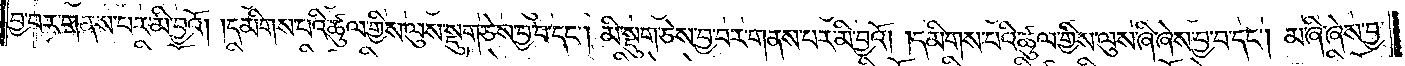བྱ་བར་གནས་པར་མི་བྱའོ། །དམིགས་པའི་ཚུལ་གྱིས་ལུས་སྡུག་ཅེས་བྱ་བ་དང༌། །མི་སྡུག་ཅེས་བྱ་བར་གནས་པར་མི་བྱའོ། །དམིགས་པའི་ཚུལ་གྱིས་ལུས་ཞི་ཞེས་བྱ་བ་དང༌། མ་ཞི་ཞེས་བྱ་
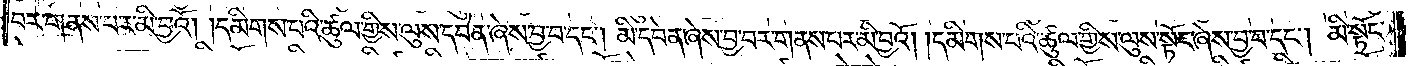བར་གནས་པར་མི་བྱའོ། །དམིགས་པའི་ཚུལ་གྱིས་ལུས་དབེན་ཞེས་བྱ་བ་དང༌། མི་དབེན་ཞེས་བྱ་བར་གནས་པར་མི་བྱའོ། །དམིགས་པའི་ཚུལ་གྱིས་ལུས་སྟོང་ཞེས་བྱ་བ་དང༌། མི་སྟོང་
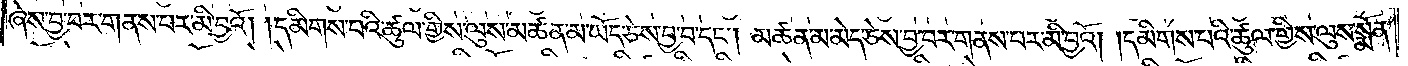ཞེས་བྱ་བར་གནས་པར་མི་བྱའོ། །དམིགས་པའི་ཚུལ་གྱིས་ལུས་མཚན་མ་ཡོད་ཅེས་བྱ་བ་དང༌། མཚན་མ་མེད་ཅེས་བྱ་བར་གནས་པར་མི་བྱའོ། །དམིགས་པའི་ཚུལ་གྱིས་ལུས་སྨོན་
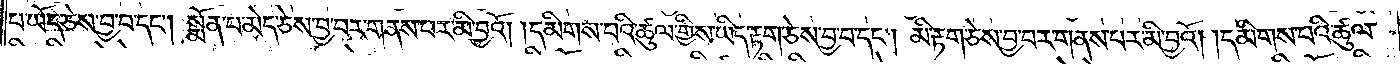པ་ཡོད་ཅེས་བྱ་བ་དང༌། སྨོན་པ་མེད་ཅེས་བྱ་བར་གནས་པར་མི་བྱའོ། །དམིགས་པའི་ཚུལ་གྱིས་ཡིད་རྟག་ཅེས་བྱ་བ་དང༌། མི་རྟག་ཅེས་བྱ་བར་གནས་པར་མི་བྱའོ། །དམིགས་པའི་ཚུལ་
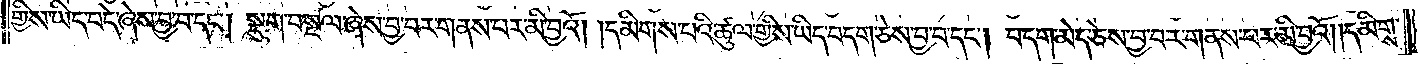གྱིས་ཡིད་བདེ་ཞེས་བྱ་བ་དང༌། སྡུག་བསྔལ་ཞེས་བྱ་བར་གནས་པར་མི་བྱའོ། །དམིགས་པའི་ཚུལ་གྱིས་ཡིད་བདག་ཅེས་བྱ་བ་དང༌། བདག་མེད་ཅེས་བྱ་བར་གནས་པར་མི་བྱའོ། །དམིགས་
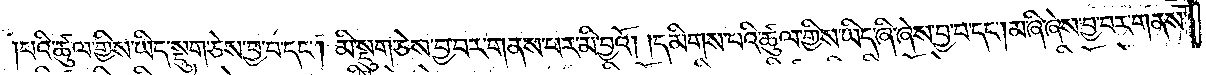པའི་ཚུལ་གྱིས་ཡིད་སྡུག་ཅེས་བྱ་བ་དང༌། མི་སྡུག་ཅེས་བྱ་བར་གནས་པར་མི་བྱའོ། །དམིགས་པའི་ཚུལ་གྱིས་ཡིད་ཞི་ཞེས་བྱ་བ་དང༌། མ་ཞི་ཞེས་བྱ་བར་གནས་
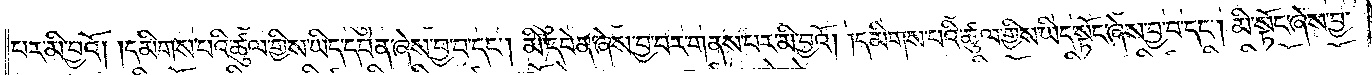པར་མི་བྱའོ། །དམིགས་པའི་ཚུལ་གྱིས་ཡིད་དབེན་ཞེས་བྱ་བ་དང༌། མི་དབེན་ཞེས་བྱ་བར་གནས་པར་མི་བྱའོ། །དམིགས་པའི་ཚུལ་གྱིས་ཡིད་སྟོང་ཞེས་བྱ་བ་དང༌། མི་སྟོང་ཞེས་བྱ་
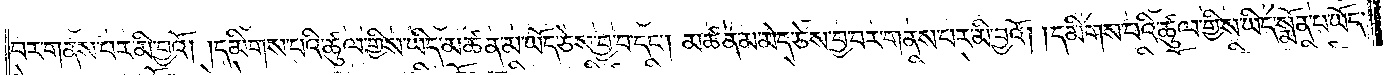བར་གནས་པར་མི་བྱའོ། །དམིགས་པའི་ཚུལ་གྱིས་ཡིད་མཚན་མ་ཡོད་ཅེས་བྱ་བ་དང༌། མཚན་མ་མེད་ཅེས་བྱ་བར་གནས་པར་མི་བྱའོ། །དམིགས་པའི་ཚུལ་གྱིས་ཡིད་སྨོན་པ་ཡོད་
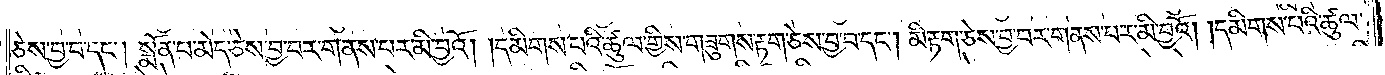ཅེས་བྱ་བ་དང༌། སྨོན་པ་མེད་ཅེས་བྱ་བར་གནས་པར་མི་བྱའོ། །དམིགས་པའི་ཚུལ་གྱིས་གཟུགས་རྟག་ཅེས་བྱ་བ་དང༌། མི་རྟག་ཅེས་བྱ་བར་གནས་པར་མི་བྱའོ། །དམིགས་པའི་ཚུལ་
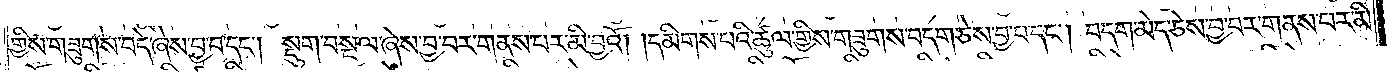གྱིས་གཟུགས་བདེ་ཞེས་བྱ་བ་དང༌། སྡུག་བསྔལ་ཞེས་བྱ་བར་གནས་པར་མི་བྱའོ། །དམིགས་པའི་ཚུལ་གྱིས་གཟུགས་བདག་ཅེས་བྱ་བ་དང༌། བདག་མེད་ཅེས་བྱ་བར་གནས་པར་མི་
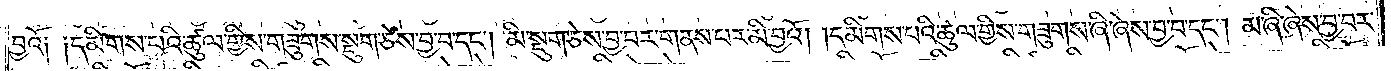བྱའོ༏ ༏དམིགས་པའི་ཚུལ་གྱིས་གཟུགས་སྡུག་ཅེས་བྱ་བ་དང༌། མི་སྡུག་ཅེས་བྱ་བར་གནས་པར་མི་བྱའོ། །དམིགས་པའི་ཚུལ་གྱིས་གཟུགས་ཞི་ཞེས་བྱ་བ་དང༌། མ་ཞི་ཞེས་བྱ་བར་
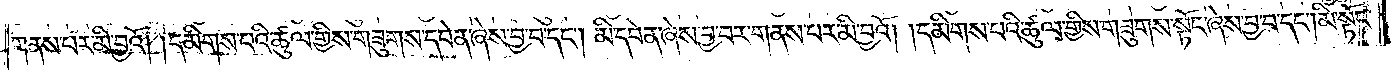གནས་པར་མི་བྱའོ། །དམིགས་པའི་ཚུལ་གྱིས་གཟུགས་དབེན་ཞེས་བྱ་བ་དང༌། མི་དབེན་ཞེས་བྱ་བར་གནས་པར་མི་བྱའོ། །དམིགས་པའི་ཚུལ་གྱིས་གཟུགས་སྟོང་ཞེས་བྱ་བ་དང༌། མི་སྟོང་
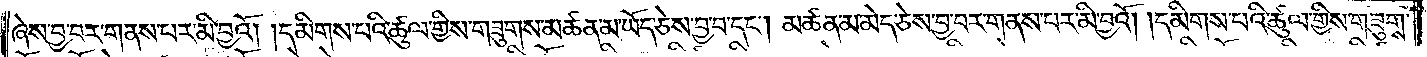ཞེས་བྱ་བར་གནས་པར་མི་བྱའོ། །དམིགས་པའི་ཚུལ་གྱིས་གཟུགས་མཚན་མ་ཡོད་ཅེས་བྱ་བ་དང༌། མཚན་མ་མེད་ཅེས་བྱ་བར་གནས་པར་མི་བྱའོ། །དམིགས་པའི་ཚུལ་གྱིས་གཟུགས་
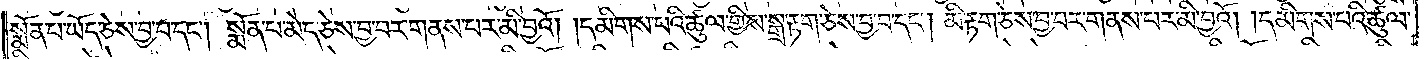སྨོན་པ་ཡོད་ཅེས་བྱ་བ་དང༌། སྨོན་པ་མེད་ཅེས་བྱ་བར་གནས་པར་མི་བྱའོ། །དམིགས་པའི་ཚུལ་གྱིས་སྒྲ་རྟག་ཅེས་བྱ་བ་དང༌། མི་རྟག་ཅེས་བྱ་བར་གནས་པར་མི་བྱའོ། །དམིགས་པའི་ཚུལ་
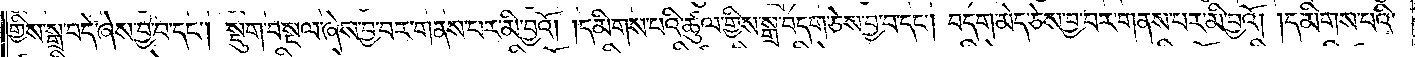གྱིས་སྒྲ་བདེ་ཞེས་བྱ་བ་དང༌། སྡུག་བསྔལ་ཞེས་བྱ་བར་གནས་པར་མི་བྱའོ། །དམིགས་པའི་ཚུལ་གྱིས་སྒྲ་བདག་ཅེས་བྱ་བ་དང༌། བདག་མེད་ཅེས་བྱ་བར་གནས་པར་མི་བྱའོ། །དམིགས་པའི་
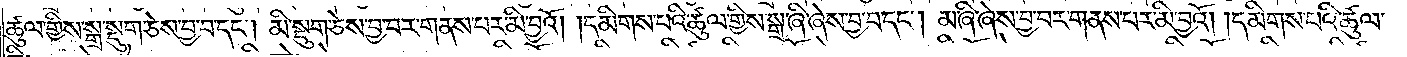ཚུལ་གྱིས་སྒྲ་སྡུག་ཅེས་བྱ་བ་དང༌། མི་སྡུག་ཅེས་བྱ་བར་གནས་པར་མི་བྱའོ། །དམིགས་པའི་ཚུལ་གྱིས་སྒྲ་ཞི་ཞེས་བྱ་བ་དང༌། མ་ཞི་ཞེས་བྱ་བར་གནས་པར་མི་བྱའོ། །དམིགས་པའི་ཚུལ་
